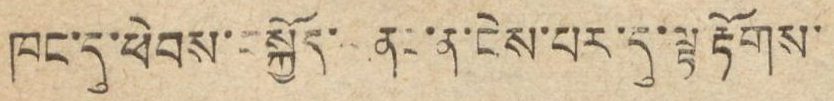ཁང་དུ་ཕེབས་བསྐྱོད་གནང་ན་ངེས་པར་དུ་ལྟ་རྟོགས་
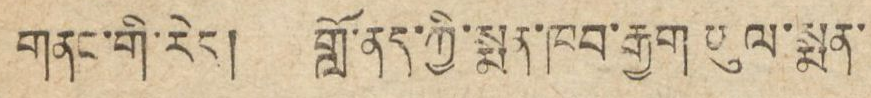གནང་གི་རེད། གློ་ནད་ཀྱི་སྨན་ཁབ་རྒྱག་ཡུལ་སྨན་
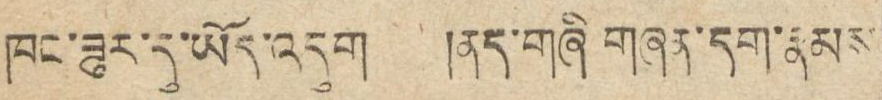ཁང་ཟུར་དུ་ཡོད་འདུག །ནད་གཞི གཞན་དག་རྣམས
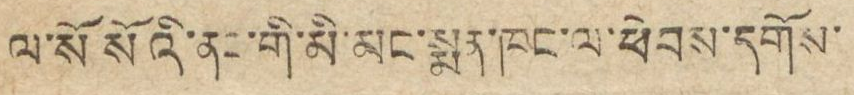ལ་སོ སོའི་ནང་གི་མི་མང་སྨན་ཁང་ལ་ཕེབས་དགོས་
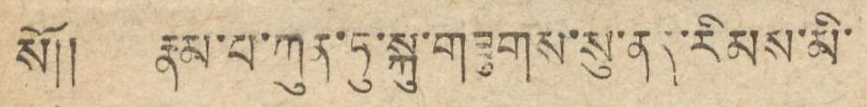སོ།། རྣམ་པ་ཀུན་ཏུ་སྐུ་གཟུགས་སུ་ནད་རིམས་མི་
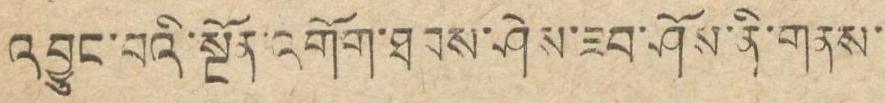འབྱུང་བའི་སྔོན་འགོག་ཐབས་ཤེས་ཟབ་ཤོས་ནི་གནས་
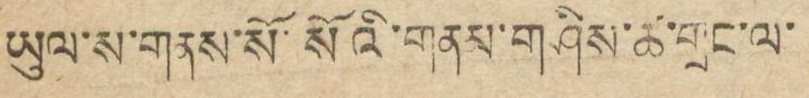ཡུལ་ས་གནས་སོ་སོའི་གནམ་གཤིས་ཚ་གྲང་ལ་
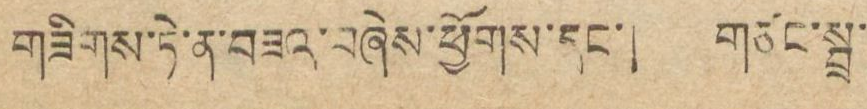གཟིགས་ཏེ་ན་བཟའ་བཞེས་ཕྱོགས་དང་། གཙང་སྦྲ་
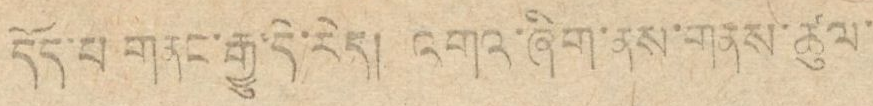དོད་པ་གནང་རྒྱུ་དེ་རེད། འགའ་ཞིག་ནས་གནས་ཚུལ་
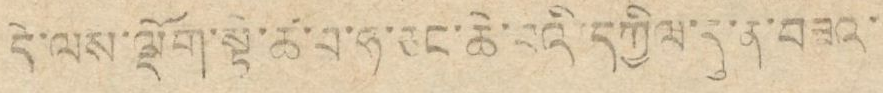དེ་ལས་ལྡོག་སྟེ་ཚ་བ་ཧ་ཅང་ཆེ་བའི་དཀྱིལ་དུ་ན་བཟའ་
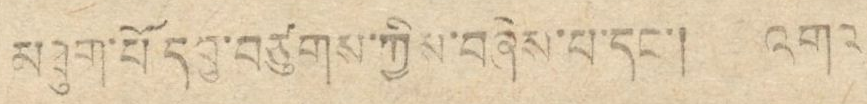མཐུག་པོ་དབུ་བཙུགས་ཀྱིས་བཞེས་པ་དང་། འགའ
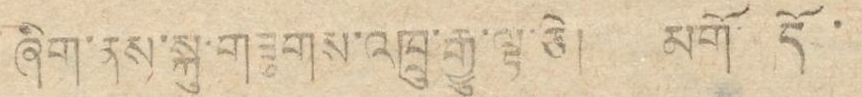ཞིག་ནས་སྐུ་གཟུགས་འཁྲུ་རྒྱུ་ལྟ་ཅི། མགོ་གདོང་
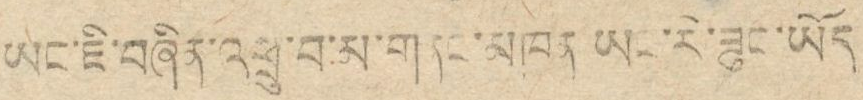ཡང་ཇི་བཞིན་འཕྲུ་བ་མ་གནང་མཁན་ཡང་རེ་ཟུང་ཡོད།
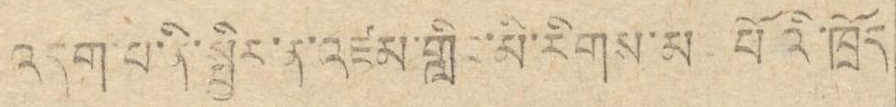འདུག་པ་ནི་སྤྱིར་ན་འཛམ་གླིང་མི་རིགས་མང་པོའི་ཁྲོད
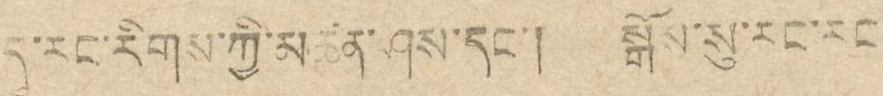དུ་རང་རིགས་ཀྱི་མཚན་ཤས་དང་། སྒོས་སུ་རང་རང
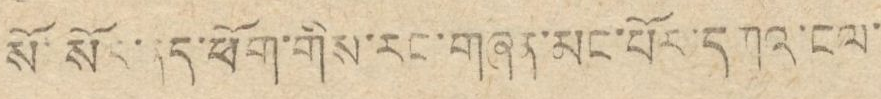སོ་སོར་ནད་ཕོག་གིས་རང་གཞན་མང་པོར་དཀའ་ངལ་
